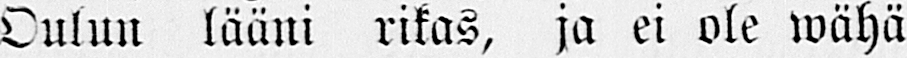Oulun lääni rikas, ja ei ole wähä
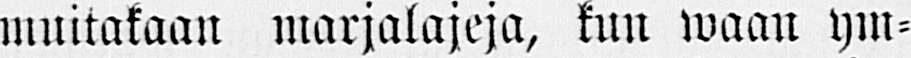muitakaan marjalajeja, kun waan ym-
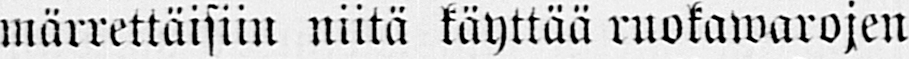märrettäisiin niitä käyttää ruokawarojen
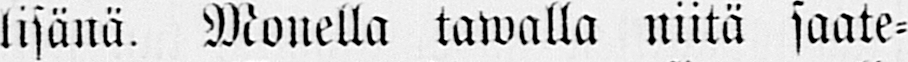lisänä. Monella tawalla niitä saate-
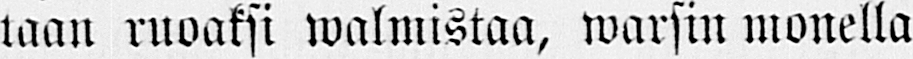taan ruoaksi walmistaa, warsin monella
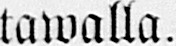tawalla.
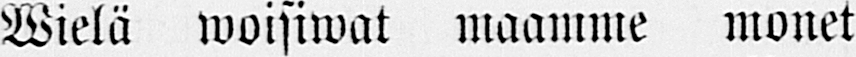Wielä woisiwat maamme monet
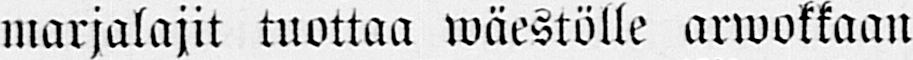marjalajit tuottaa wäestölle arwokkaan
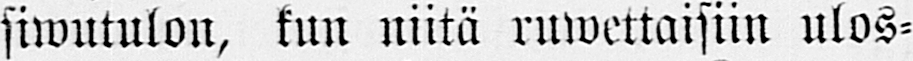siwutulon, kun niitä ruwettaisiin ulos-
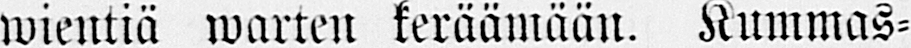wientiä warten keräämään. Kummas-
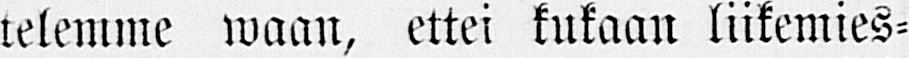telemme waan, ettei kukaan liikemies-
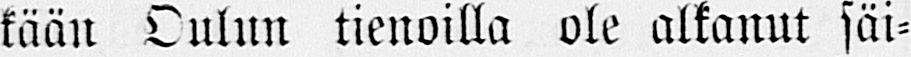kään Oulun tienoilla ole alkanut säi-
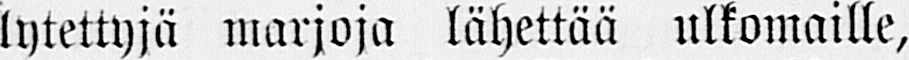lytettyjä marjoja lähettää ulkomaille,
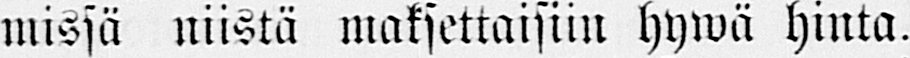missä niistä maksettaisiin hywä hinta.
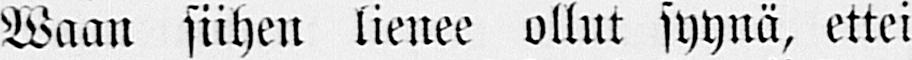Waan siihen lienee ollut syynä, ettei
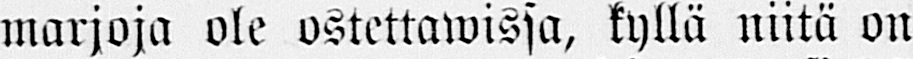marjoja ole ostettawissa, kyllä niitä on
